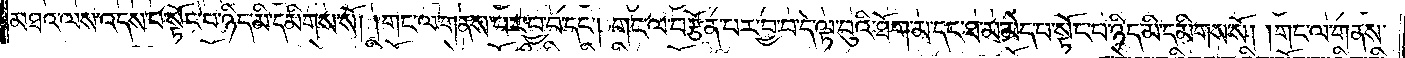མཐའ་ལས་འདས་པ་སྟོང་པ་ཉིད་མི་དམིགས་སོ། །གང་ལ་གནས་པར་བྱ་བ་དང༌། གང་ལ་བརྩོན་པར་བྱ་བ་དེ་ལྟ་བུའི་ཐོག་མ་དང་ཐ་མ་མེད་པ་སྟོང་པ་ཉིད་དམིགས་སོ། །གང་ལ་གནས་
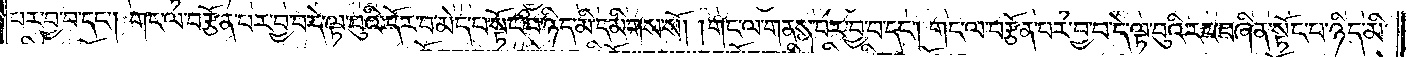པར་བྱ་བ་དང༌། གང་ལ་བརྩོན་པར་བྱ་བ་དེ་ལྟ་བུའི་དོར་བ་མེད་པ་སྟོང་པ་ཉིད་མི་དམིགས་སོ། །གང་ལ་གནས་པར་བྱ་བ་དང༌། གང་ལ་བརྩོན་པར་བྱ་བ་དེ་ལྟ་བུའི་རང་བཞིན་སྟོང་པ་ཉིད་མི་
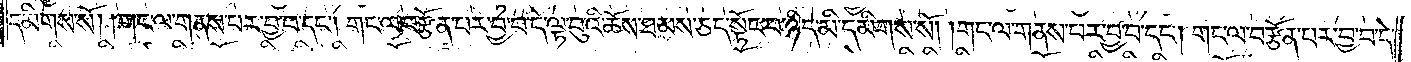དམིགས་སོ། །གང་ལ་གནས་པར་བྱ་བ་དང༌། གང་ལ་བརྩོན་པར་བྱ་བ་དེ་ལྟ་བུའི་ཆོས་ཐམས་ཅད་སྟོང་པ་ཉིད་མི་དམིགས་སོ། །གང་ལ་གནས་པར་བྱ་བ་དང༌། གང་ལ་བརྩོན་པར་བྱ་བ་དེ་
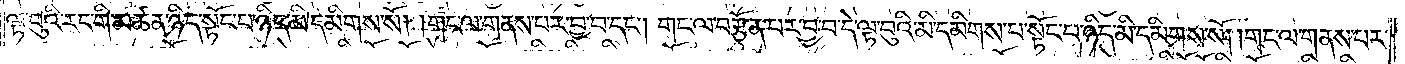ལྟ་བུའི་རང་གི་མཚན་ཉིད་སྟོང་པ་ཉིད་མི་དམིགས་སོ། །གང་ལ་གནས་པར་བྱ་བ་དང༌། གང་ལ་བརྩོན་པར་བྱ་བ་དེ་ལྟ་བུའི་མི་དམིགས་པ་སྟོང་པ་ཉིད་མི་དམིགས་སོ། །གང་ལ་གནས་པར་
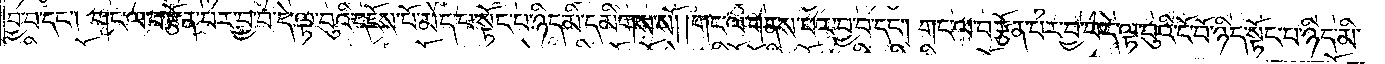བྱ་བ་དང༌། གང་ལ་བརྩོན་པར་བྱ་བ་དེ་ལྟ་བུའི་དངོས་པོ་མེད་པ་སྟོང་པ་ཉིད་མི་དམིགས་སོ། །གང་ལ་གནས་པར་བྱ་བ་དང༌། གང་ལ་བརྩོན་པར་བྱ་བ་དེ་ལྟ་བུའི་ངོ་བོ་ཉིད་སྟོང་པ་ཉིད་མི་
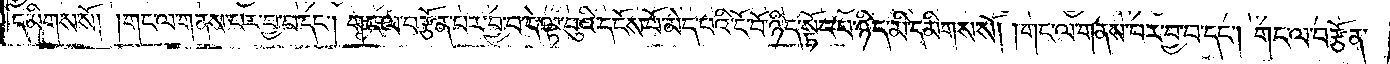དམིགས་སོ། །གང་ལ་གནས་པར་བྱ་བ་དང༌། གང་ལ་བརྩོན་པར་བྱ་བ་དེ་ལྟ་བུའི་དངོས་པོ་མེད་པའི་ངོ་བོ་ཉིད་སྟོང་པ་ཉིད་མི་དམིགས་སོ། །གང་ལ་གནས་པར་བྱ་བ་དང༌། གང་ལ་བརྩོན་
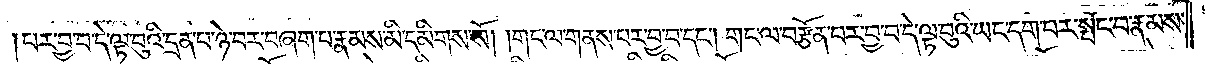པར་བྱ་བ་དེ་ལྟ་བུའི་དྲན་པ་ཉེ་བར་བཞག་པ་རྣམས་མི་དམིགས་སོ། །གང་ལ་གནས་པར་བྱ་བ་དང༌། གང་ལ་བརྩོན་པར་བྱ་བ་དེ་ལྟ་བུའི་ཡང་དག་པར་སྤོང་བ་རྣམས་
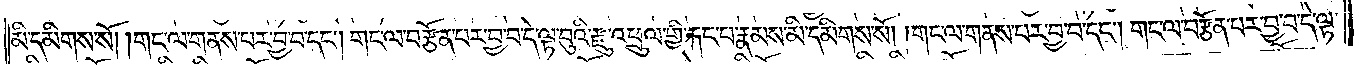མི་དམིགས་སོ། །གང་ལ་གནས་པར་བྱ་བ་དང༌། གང་ལ་བརྩོན་པར་བྱ་བ་དེ་ལྟ་བུའི་རྫུ་འཕྲུལ་གྱི་རྐང་པ་རྣམས་མི་དམིགས་སོ། །གང་ལ་གནས་པར་བྱ་བ་དང༌། གང་ལ་བརྩོན་པར་བྱ་བ་དེ་ལྟ་
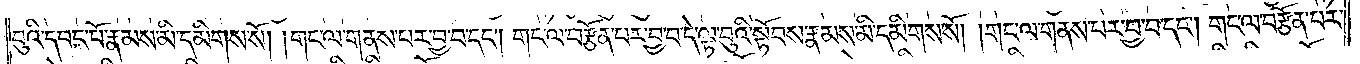བུའི་དབང་པོ་རྣམས་མི་དམིགས་སོ། །གང་ལ་གནས་པར་བྱ་བ་དང༌། གང་ལ་བརྩོན་པར་བྱ་བ་དེ་ལྟ་བུའི་སྟོབས་རྣམས་མི་དམིགས་སོ། །གང་ལ་གནས་པར་བྱ་བ་དང༌། གང་ལ་བརྩོན་པར་
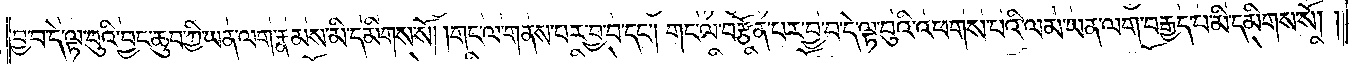བྱ་བ་དེ་ལྟ་བུའི་བྱང་ཆུབ་ཀྱི་ཡན་ལག་རྣམས་མི་དམིགས་སོ། །གང་ལ་གནས་པར་བྱ་བ་དང༌། གང་ལ་བརྩོན་པར་བྱ་བ་དེ་ལྟ་བུའི་འཕགས་པའི་ལམ་ཡན་ལག་བརྒྱད་པ་མི་དམིགས་སོ། །
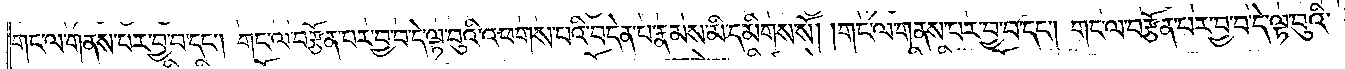གང་ལ་གནས་པར་བྱ་བ་དང༌། གང་ལ་བརྩོན་པར་བྱ་བ་དེ་ལྟ་བུའི་འཕགས་པའི་བདེན་པ་རྣམས་མི་དམིགས་སོ། །གང་ལ་གནས་པར་བྱ་བ་དང༌། གང་ལ་བརྩོན་པར་བྱ་བ་དེ་ལྟ་བུའི་
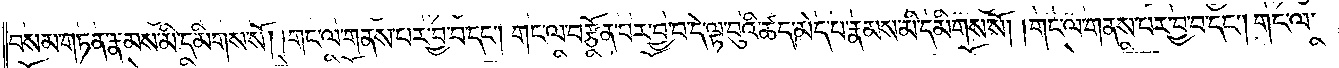བསམ་གཏན་རྣམས་མི་དམིགས་སོ། །གང་ལ་གནས་པར་བྱ་བ་དང༌། གང་ལ་བརྩོན་པར་བྱ་བ་དེ་ལྟ་བུའི་ཚད་མེད་པ་རྣམས་མི་དམིགས་སོ། །གང་ལ་གནས་པར་བྱ་བ་དང༌། གང་ལ་
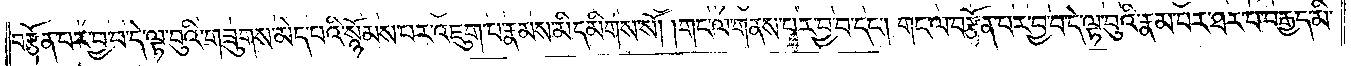བརྩོན་པར་བྱ་བ་དེ་ལྟ་བུའི་གཟུགས་མེད་པའི་སྙོམས་པར་འཇུག་པ་རྣམས་མི་དམིགས་སོ། །གང་ལ་གནས་པར་བྱ་བ་དང༌། གང་ལ་བརྩོན་པར་བྱ་བ་དེ་ལྟ་བུའི་རྣམ་པར་ཐར་པ་བརྒྱད་མི་
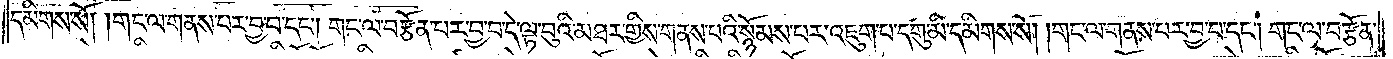དམིགས་སོ། །གང་ལ་གནས་པར་བྱ་བ་དང༌། གང་ལ་བརྩོན་པར་བྱ་བ་དེ་ལྟ་བུའི་མཐར་གྱིས་གནས་པའི་སྙོམས་པར་འཇུག་པ་དགུ་མི་དམིགས་སོ། །གང་ལ་གནས་པར་བྱ་བ་དང༌། གང་ལ་བརྩོན་
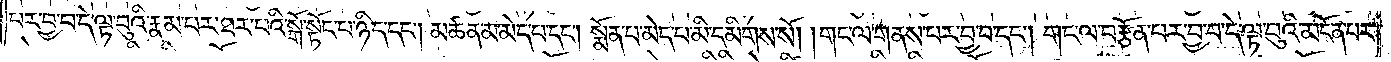པར་བྱ་བ་དེ་ལྟ་བུའི་རྣམ་པར་ཐར་པའི་སྒོ་སྟོང་པ་ཉིད་དང༌། མཚན་མ་མེད་པ་དང༌། སྨོན་པ་མེད་པ་མི་དམིགས་སོ། །གང་ལ་གནས་པར་བྱ་བ་དང༌། གང་ལ་བརྩོན་པར་བྱ་བ་དེ་ལྟ་བུའི་མངོན་པར་
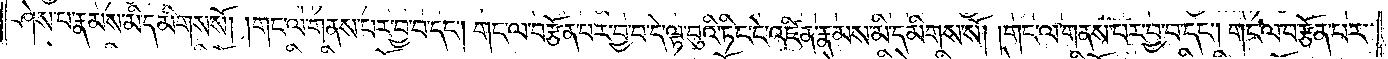ཤེས་པ་རྣམས་མི་དམིགས་སོ། །གང་ལ་གནས་པར་བྱ་བ་དང༌། གང་ལ་བརྩོན་པར་བྱ་བ་དེ་ལྟ་བུའི་ཏིང་ངེ་འཛིན་རྣམས་མི་དམིགས་སོ། །གང་ལ་གནས་པར་བྱ་བ་དང༌། གང་ལ་བརྩོན་པར་
